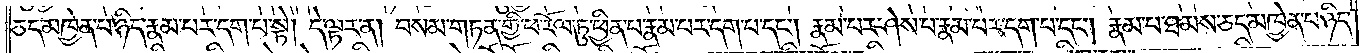ཅད་མཁྱེན་པ་ཉིད་རྣམ་པར་དག་པ་སྟེ། དེ་ལྟར་ན། བསམ་གཏན་གྱི་ཕ་རོལ་ཏུ་ཕྱིན་པ་རྣམ་པར་དག་པ་དང༌། རྣམ་པར་ཤེས་པ་རྣམ་པར་དག་པ་དང༌། རྣམ་པ་ཐམས་ཅད་མཁྱེན་པ་ཉིད་
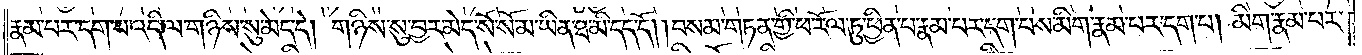རྣམ་པར་དག་པ་འདི་ལ་གཉིས་སུ་མེད་དེ། གཉིས་སུ་བྱར་མེད་སོ་སོ་མ་ཡིན་ཐ་མི་དད་དོ། །བསམ་གཏན་གྱི་ཕ་རོལ་ཏུ་ཕྱིན་པ་རྣམ་པར་དག་པས་མིག་རྣམ་པར་དག་པ། མིག་རྣམ་པར་
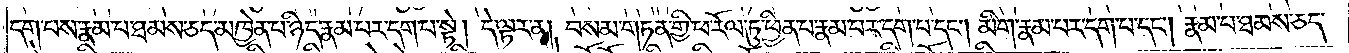དག་པས་རྣམ་པ་ཐམས་ཅད་མཁྱེན་པ་ཉིད་རྣམ་པར་དག་པ་སྟེ། དེ་ལྟར་ན། བསམ་གཏན་གྱི་ཕ་རོལ་ཏུ་ཕྱིན་པ་རྣམ་པར་དག་པ་དང༌། མིག་རྣམ་པར་དག་པ་དང༌། རྣམ་པ་ཐམས་ཅད་
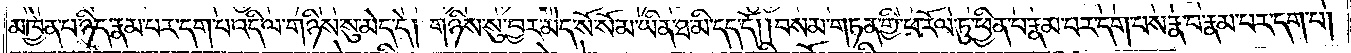མཁྱེན་པ་ཉིད་རྣམ་པར་དག་པ་འདི་ལ་གཉིས་སུ་མེད་དེ། གཉིས་སུ་བྱར་མེད་སོ་སོ་མ་ཡིན་ཐ་མི་དད་དོ། །བསམ་གཏན་གྱི་ཕ་རོལ་ཏུ་ཕྱིན་པ་རྣམ་པར་དག་པས་རྣ་བ་རྣམ་པར་དག་པ།
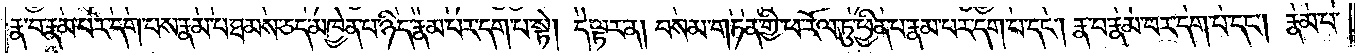རྣ་བ་རྣམ་པར་དག་པས་རྣམ་པ་ཐམས་ཅད་མཁྱེན་པ་ཉིད་རྣམ་པར་དག་པ་སྟེ། དེ་ལྟར་ན། བསམ་གཏན་གྱི་ཕ་རོལ་ཏུ་ཕྱིན་པ་རྣམ་པར་དག་པ་དང༌། རྣ་བ་རྣམ་པར་དག་པ་དང༌། རྣམ་པ་
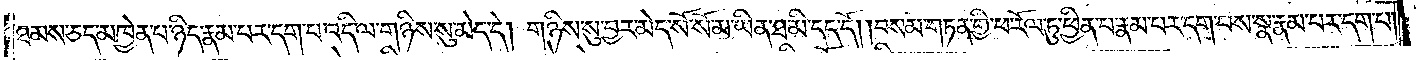ཐམས་ཅད་མཁྱེན་པ་ཉིད་རྣམ་པར་དག་པ་འདི་ལ་གཉིས་སུ་མེད་དེ། གཉིས་སུ་བྱར་མེད་སོ་སོ་མ་ཡིན་ཐ་མི་དད་དོ། །བསམ་གཏན་གྱི་ཕ་རོལ་ཏུ་ཕྱིན་པ་རྣམ་པར་དག་པས་སྣ་རྣམ་པར་དག་པ།
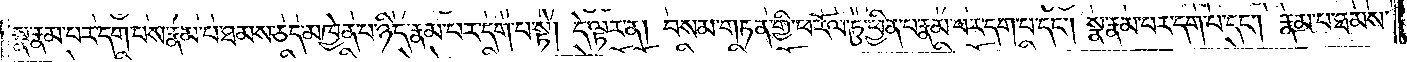སྣ་རྣམ་པར་དག་པས་རྣམ་པ་ཐམས་ཅད་མཁྱེན་པ་ཉིད་རྣམ་པར་དག་པ་སྟེ། དེ་ལྟར་ན། བསམ་གཏན་གྱི་ཕ་རོལ་ཏུ་ཕྱིན་པ་རྣམ་པར་དག་པ་དང༌། སྣ་རྣམ་པར་དག་པ་དང་༑ རྣམ་པ་ཐམས་
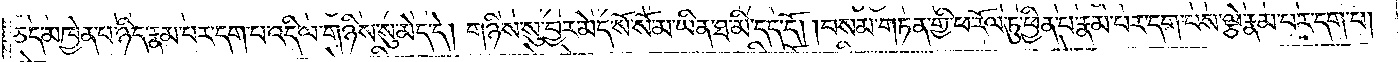ཅད་མཁྱེན་པ་ཉིད་རྣམ་པར་དག་པ་འདི་ལ་གཉིས་སུ་མེད་དེ། གཉིས་སུ་བྱར་མེད་སོ་སོ་མ་ཡིན་ཐ་མི་དད་དོ། །བསམ་གཏན་གྱི་ཕ་རོལ་ཏུ་ཕྱིན་པ་རྣམ་པར་དག་པས་ལྕེ་རྣམ་པར་དག་པ།
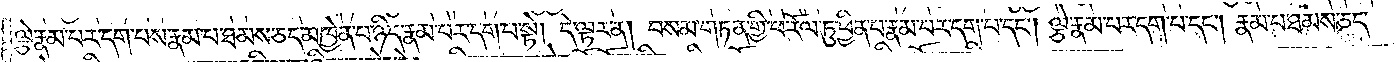ལྕེ་རྣམ་པར་དག་པས་རྣམ་པ་ཐམས་ཅད་མཁྱེན་པ་ཉིད་རྣམ་པར་དག་པ་སྟེ། དེ་ལྟར་ན། བསམ་གཏན་གྱི་ཕ་རོལ་ཏུ་ཕྱིན་པ་རྣམ་པར་དག་པ་དང༌། ལྕེ་རྣམ་པར་དག་པ་དང༌། རྣམ་པ་ཐམས་ཅད་
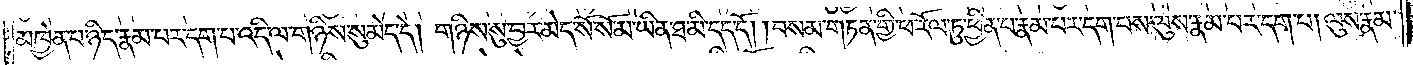མཁྱེན་པ་ཉིད་རྣམ་པར་དག་པ་འདི་ལ་གཉིས་སུ་མེད་དེ། གཉིས་སུ་བྱར་མེད་སོ་སོ་མ་ཡིན་ཐ་མི་དད་དོ། །བསམ་གཏན་གྱི་ཕ་རོལ་ཏུ་ཕྱིན་པ་རྣམ་པར་དག་པས་ལུས་རྣམ་པར་དག་པ། ལུས་རྣམ་
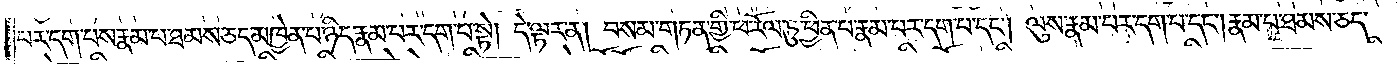པར་དག་པས་རྣམ་པ་ཐམས་ཅད་མཁྱེན་པ་ཉིད་རྣམ་པར་དག་པ་སྟེ། དེ་ལྟར་ན། བསམ་གཏན་གྱི་ཕ་རོལ་ཏུ་ཕྱིན་པ་རྣམ་པར་དག་པ་དང༌། ལུས་རྣམ་པར་དག་པ་དང༌། རྣམ་པ་ཐམས་ཅད་
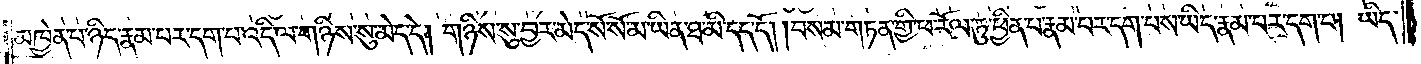མཁྱེན་པ་ཉིད་རྣམ་པར་དག་པ་འདི་ལ་གཉིས་སུ་མེད་དེ། གཉིས་སུ་བྱར་མེད་སོ་སོ་མ་ཡིན་ཐ་མི་དད་དོ། །བསམ་གཏན་གྱི་ཕ་རོལ་ཏུ་ཕྱིན་པ་རྣམ་པར་དག་པས་ཡིད་རྣམ་པར་དག་པ། ཡིད་
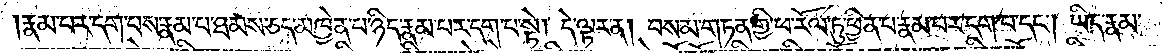རྣམ་པར་དག་པས་རྣམ་པ་ཐམས་ཅད་མཁྱེན་པ་ཉིད་རྣམ་པར་དག་པ་སྟེ། དེ་ལྟར་ན། བསམ་གཏན་གྱི་ཕ་རོལ་ཏུ་ཕྱིན་པ་རྣམ་པར་དག་པ་དང༌། ཡིད་རྣམ་
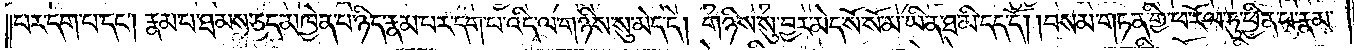པར་དག་པ་དང༌། རྣམ་པ་ཐམས་ཅད་མཁྱེན་པ་ཉིད་རྣམ་པར་དག་པ་འདི་ལ་གཉིས་སུ་མེད་དེ། གཉིས་སུ་བྱར་མེད་སོ་སོ་མ་ཡིན་ཐ་མི་དད་དོ། །བསམ་གཏན་གྱི་ཕ་རོལ་ཏུ་ཕྱིན་པ་རྣམ་
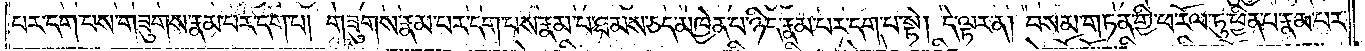པར་དག་པས་གཟུགས་རྣམ་པར་དག་པ། གཟུགས་རྣམ་པར་དག་པས་རྣམ་པ་ཐམས་ཅད་མཁྱེན་པ་ཉིད་རྣམ་པར་དག་པ་སྟེ། དེ་ལྟར་ན། བསམ་གཏན་གྱི་ཕ་རོལ་ཏུ་ཕྱིན་པ་རྣམ་
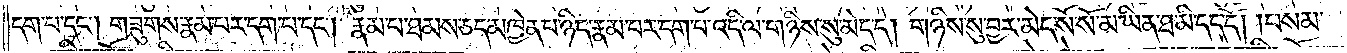དག་པ་དང༌། གཟུགས་རྣམ་པར་དག་པ་དང༌། རྣམ་པ་ཐམས་ཅད་མཁྱེན་པ་ཉིད་རྣམ་པར་དག་པ་འདི་ལ་གཉིས་སུ་མེད་དེ། གཉིས་སུ་བྱར་མེད་སོ་སོ་མ་ཡིན་ཐ་མི་དད་དོ། །བསམ་
